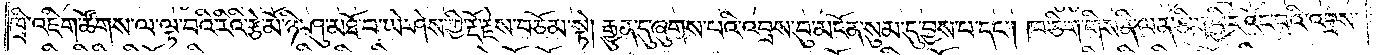ཁྲི་འཇིག་ཚོགས་ལ་ལྟ་བའི་རིའི་རྩེ་མོ་ཉི་ཤུ་མཐོ་བ་ཡེ་ཤེས་ཀྱི་རྡོ་རྗེས་བཅོམ་སྟེ། རྒྱུན་དུ་ཞུགས་པའི་འབྲས་བུ་མངོན་སུམ་དུ་བྱས་པ་དང༌། ཁ་ཅིག་གིས་ནི་ལན་ཅིག་ཕྱིར་འོང་བའི་འབྲས་
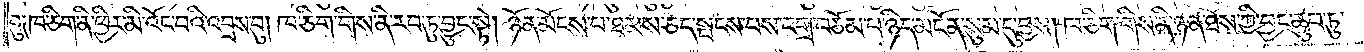བུ༑ ཁ་ཅིག་ནི་ཕྱིར་མི་འོང་བའི་འབྲས་བུ། ཁ་ཅིག་གིས་ནི་རབ་ཏུ་བྱུང་སྟེ། ཉོན་མོངས་པ་ཐམས་ཅད་སྤངས་པས་དགྲ་བཅོམ་པ་ཉིད་མངོན་སུམ་དུ་བྱས། ཁ་ཅིག་གིས་ནི་ཉན་ཐོས་ཀྱི་བྱང་ཆུབ་ཏུ་
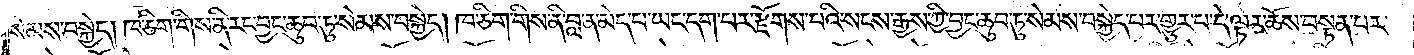སེམས་བསྐྱེད། ཁ་ཅིག་གིས་ནི་རང་བྱང་ཆུབ་ཏུ་སེམས་བསྐྱེད། ཁ་ཅིག་གིས་ནི་བླ་ན་མེད་པ་ཡང་དག་པར་རྫོགས་པའི་སངས་རྒྱས་ཀྱི་བྱང་ཆུབ་ཏུ་སེམས་བསྐྱེད་པར་གྱུར་པ་དེ་ལྟར་ཆོས་བསྟན་པར་
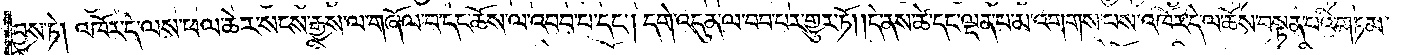བྱས་ཏེ། འཁོར་དེ་ལས་ཕལ་ཆེར་སངས་རྒྱས་ལ་གཞོལ་བ་དང་ཆོས་ལ་འབབ་པ་དང༌། དགེ་འདུན་ལ་བབ་པར་གྱུར་ཏོ། །དེ་ནས་ཚེ་དང་ལྡན་པ་མ་འགགས་པས་འཁོར་དེ་ལ་ཆོས་བསྟན་པའི་གཏམ་
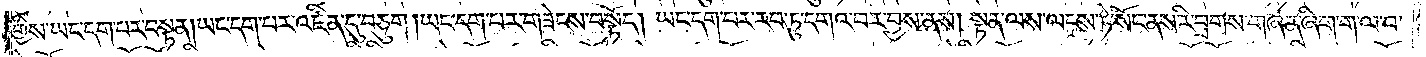གྱིས་ཡང་དག་པར་བསྟན། ཡང་དག་པར་འཛིན་དུ་བཅུག །ཡང་དག་པར་གཟེངས་བསྟོད། ཡང་དག་པར་རབ་ཏུ་དགའ་བར་བྱས་ནས། སྟན་ལས་ལངས་ཏེ་སོང་ནས་རི་བྲགས་གཞན་ཞིག་ག་ལ་བ་
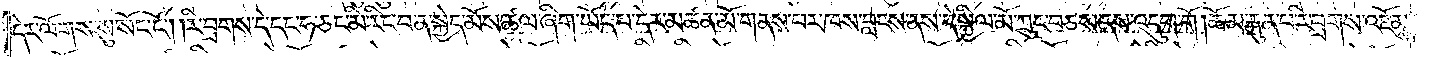དེར་ལོགས་སུ་སོང་ངོ༌། །རི་བྲགས་དེ་དང་ཧ་ཅང་མི་རིང་བ་ན་སྐྱེད་མོས་ཆལ་ཞིག་ཡོད་པ་དེར་མཚན་མོ་གནས་པར་ཁས་བླངས་ནས་དེ་སྐྱིལ་མོ་ཀྲུང་བཅས་ནས་འདུག་གོ །ཆོམ་རྐུན་པ་རི་བྲགས་འཇོམས་
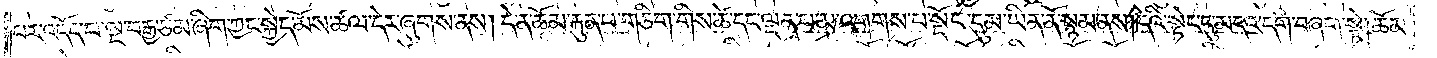པར་འདོད་པ་ལྔ་བརྒྱ་ཙམ་ཞིག་ཀྱང་སྐྱེད་མོས་ཚལ་དེར་ཞུགས་ནས། དེ་ན་ཆོམ་རྐུན་པ་གཅིག་གིས་ཚེ་དང་ལྡན་པ་མ་འགགས་པ་སྡོང་དུམ་ཡིན་ནོ་སྙམ་ནས། དེའི་སྟེང་དུ་མདའ་དག་བཞག་སྟེ། ཆོམ་
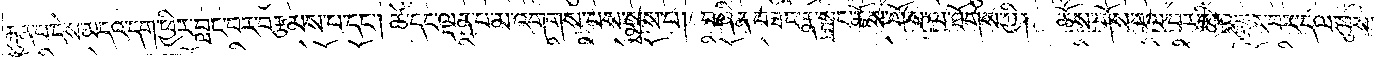རྐུན་པ་དེས་མདའ་དག་ཕྱིར་བླང་བར་བརྩམས་པ་དང༌། ཚེ་དང་ལྡན་པ་མ་འགགས་པས་སྨྲས་པ། བཞིན་བཟང་རྣ་སྦྲང་ཆོས་གོས་ལ་ཐོགས་ཀྱི། ཆོས་གོས་རལ་བར་མི་འགྱུར་བར་དལ་བུས་
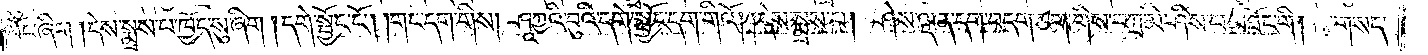ལོང་ཞིག །དེས་སྨྲས་པ་ཁྱོད་སུ་ཞིག །དགེ་སྦྱོང་ངོ༌། །གང་དག་གིས། ཤཱཀྱའི་བུའི་དགེ་སྦྱོང་དག་གིའོ། །དེས་སྨྲས་པ། ཤེས་ལྡན་དག་བདག་ཅག་གིས་བཀྲ་མི་ཤིས་པ་མཐོང་གི།  གསད་
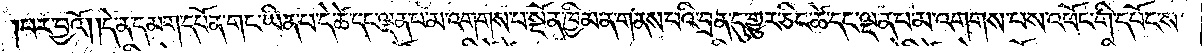པར་བྱའོ། །དེ་ན་དམག་དཔོན་གང་ཡིན་པ་དེ་ཚེ་དང་ལྡན་པ་མ་འགགས་པ་སྔོན་ཁྱིམ་ན་གནས་པའི་བྲན་དུ་གྱུར་ཅིང་ཚེ་དང་ལྡན་པ་མ་འགགས་པས་འཕོང་གི་དཔོང་ས་
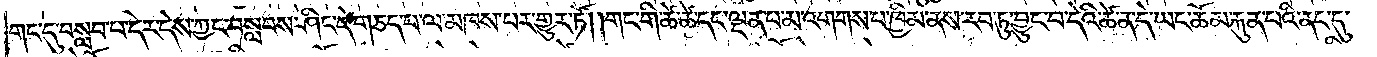གང་དུ་བསླབ་པ་དེར་དེས་ཀྱང་བསླབས་ཤིང་དེ་གཅད་པ་ལ་མཁས་པར་གྱུར་ཏོ། །གང་གི་ཚེ་ཚེ་དང་ལྡན་པ་མ་འགགས་པ་ཁྱིམ་ནས་རབ་ཏུ་བྱུང་བ་དེའི་ཚེ་ན་དེ་ཡང་ཆོམ་རྐུན་པའི་ནང་དུ་
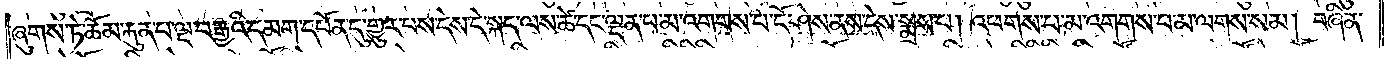ཞུགས་ཏེ་ཆོམ་རྐུན་པ་ལྔ་བརྒྱའི་དམག་དཔོན་དུ་གྱུར་པས་དེས་དེ་སྐད་ལས་ཚེ་དང་ལྡན་པ་མ་འགགས་པ་ངོ་ཤེས་ནས་དེས་སྨྲས་པ། འཕགས་པ་མ་འགགས་པ་མ་ལགས་སམ། བཞིན་
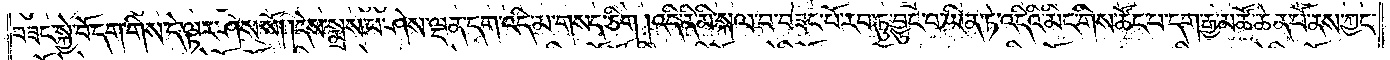བཟང་སྐྱེ་བོ་དག་གིས་དེ་ལྟར་ཤེས་སོ། །དེས་སྨྲས་པ་ཤེས་ལྡན་དག་འདི་མ་གསད་ཅིག །འདི་ནི་མི་སྐལ་བ་བཟང་པོ་རབ་ཏུ་བྱུང་བ་ཡིན་ཏེ་འདིའི་མིང་གིས་ཚོང་བ་དག་རྒྱ་མཚོ་ཆེན་པོ་ནས་ཀྱང་
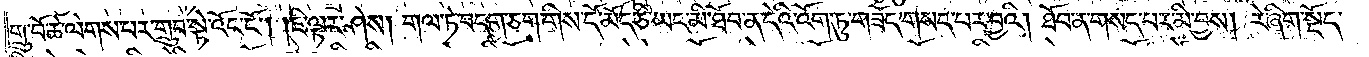གྲུ་བོ་ཆེ་ལེགས་པར་གྲུབ་སྟེ་འོང་ངོ༌། །ཇི་ལྟར་ཤེས། གལ་ཏེ་བདག་ཅག་གིས་དོ་མོད་ཅི་ཡང་མི་ཐོབ་ན་དེའི་འོག་ཏུ་གཟོད་གསད་པར་བྱའི། ཐོབ་ན་གསད་པར་མི་བྱས། རེ་ཞིག་སྡོད་
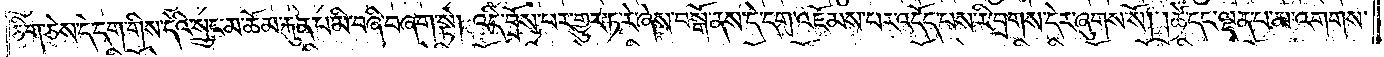ཅིག་ཅེས་དེ་དག་གིས་དེའི་སྲུང་མ་ཆོམ་རྐུན་པ་མི་བཞི་བཞག་སྟེ། འདི་བྲོས་པར་གྱུར་ཏ་རེ་ཞེས་བསྒོ་ནས་དེ་དག་འཇོམས་པར་འདོད་པས་རི་བྲགས་དེར་ཞུགས་སོ། །ཚེ་དང་ལྡན་པ་མ་འགགས་
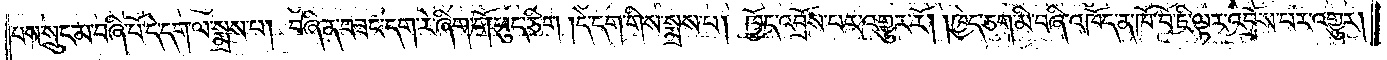པས་སྲུང་མ་བཞི་པོ་དེ་དག་ལ་སྨྲས་པ། བཞིན་བཟང་དག་རེ་ཞིག་གོ་ཕུད་ཅིག །དེ་དག་གིས་སྨྲས་པ། ཁྱོད་འབྲོས་པར་འགྱུར་རོ། །ཁྱེད་ཅག་མི་བཞི་འཁོད་ན་ཁོ་བོ་ཇི་ལྟར་འབྲོས་པར་འགྱུར།
